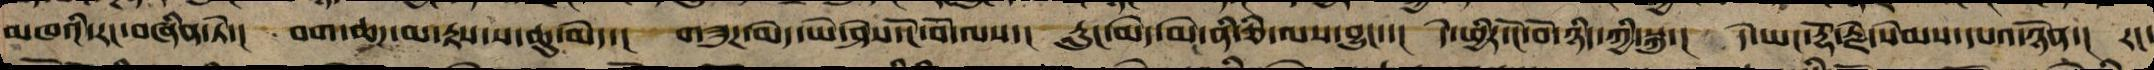མཁའི་རང་བཞིན་ཏེ་། བག་ཆཌ་མ་བརྟས་ས་ཆུ་མེད་། གཟུཌ་མེད་ཡེ་ཤེས་ངོ་བོ་ལས་། རླུང་མེད་མེ་ནི་ཅི་ལ་འབྱུང་་། དེ་ཕྱིར་ངོ་བོ་ཉིད་ཀྱི་སྐུ་། དེ་ཡང་རྡོ་རྗེ་སེམས་དཔའ་ཉོན་། རང་
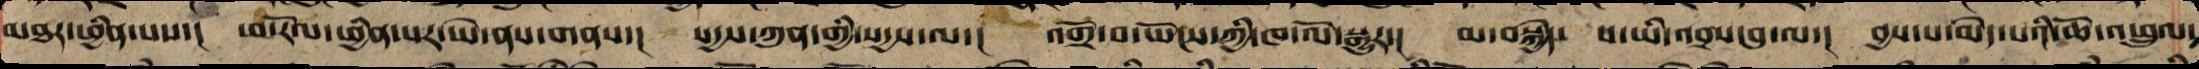མཐར་ཕྱིན་པས་། ཕ་རོལ་ཕྱིན་པར་ཡེ་ནས་གནས་། སདྱས་ཀུན་གྱི་སདྱས་ལ་། འགྲོ་བ་ཡོངས་ཀྱི་ཁ་ལོ་སྒྱུར་། མ་བསྐྱེད་པ་ཡི་འབྲས་བུ་ལ་། བྱས་པ་མེད་པའི་ཆོ་འཕྲུལ་
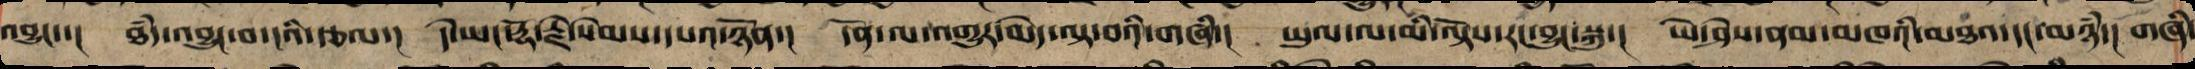བྱུང་། ཐཾད་འབྱུང་བ་ངའི་རྩལ་། དེ་ཡང་རྡོ་རྗེ་སེམས་དཔའ་ཉོན་། དོན་ལ་འགྱུར་མེད་ལྟ་བའི་གཞི་། ཡུལ་ལ་མི་ལྟོས་རང་བྱུང་སྐུ་། ཡེ་ཤེས་ནམ་མཁའི་མཐའ་དང་མཉཾ་། གཞི་
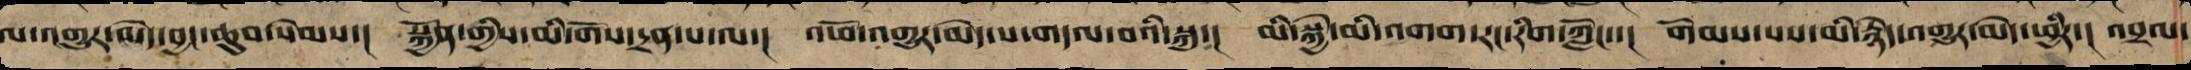ལ་འགྱུར་མེད་བྱང་ཆུབ་སེམས་། སྐྱོན་གྱིས་མི་གོས་དྲན་པ་ལ་། འཕོ་འགྱུར་མེད་པ་གདལ་བའི་སྐུ་། མི་སྐྱེ་མི་འགག་རང་རིག་ཀློང་་། གོམས་པས་མི་རྙེད་འགྱུར་མེད་ཕྱིར་། འབྲལ་
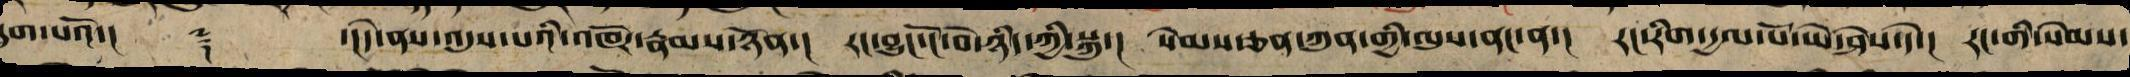དྲུག་པའོ་།། ༈ ་།།དེ་ནས་འདུས་པའི་འཁོར་རྣམས་ཉོན་། རང་བྱུང་ངོ་བོ་ཉིད་ཀྱི་སྐུ་། སེམས་ཅན་ཀུན་གྱི་ལུས་ནང་ན་། རང་རིག་རྒྱལ་པོ་ཡེ་ཤེས་དེ་། རང་གི་སེམས་
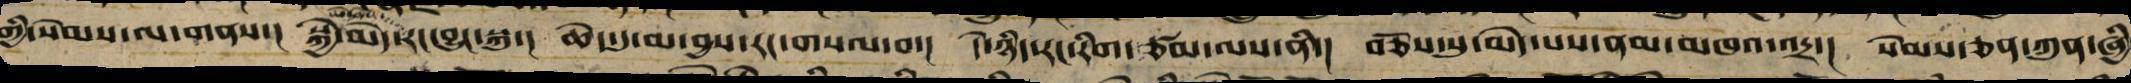གྱི་སེམས་ལ་གནས་། སྐྱེ་མེད་ཡེ་ཤེས་རང་བྱུང་སྐུ་། ཆེད་དུ་མ་བྱས་རང་གསལ་བ་། དེ་ཉིད་རང་རིག་ཙམ་ལས་ནི་། བཅོས་སུ་མེད་པས་ནམ་མཁའ་འདྲ་། སེམས་ཅན་ཀུན་ཞྱི
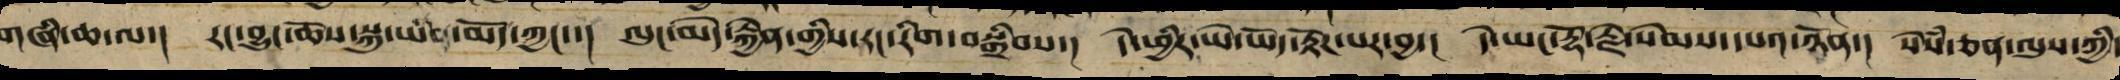གཞི་ཆ་ལ་། རང་བྱུང་ཆོས་སྐུ་ཡིན་མོད་ཀྱང་་། ལུང་མེད་རྐྱེན་གྱིས་རང་རིག་བསྒྲིབས་། དེ་ཕྱིར་ཡེ་ཡོད་རྟོཌ་པར་བྱ་། དེ་ཡང་རྡོ་རྗེ་སེམས་དཔའ་ཉོན་། སེཾས་ཅན་ལུས་ཀྱི་
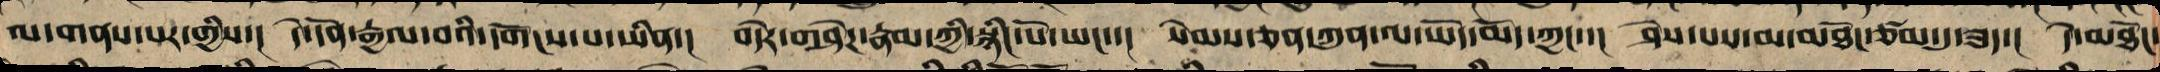ལ་གནས་པར་གྱིས་། དེ་དོན་རྒྱལ་བའི་དགོངས་པ་ཡིན་། བདེར་གཤེཌ་རྣམས་ཀྱི་སྙིང་པོ་ཡང་་། སེམས་ཅན་ཀུན་ལ་ཡོད་མོད་ཀྱང་་། ཤེས་པས་མ་མཐོང་ཙམ་དུ་ཟད་། དེ་མཐོང་
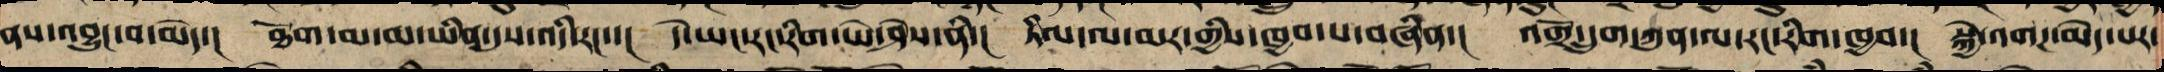ནས་འབྱུང་བ་མེད་། ཐོག་མ་མ་ཡིན་དུས་འདི་རང་་། དེ་ཡང་རང་རིག་ཡེ་ཤེས་ནི་། ཏིལ་ལ་མར་གྱིས་ཁྱབ་པ་བཞིན་། འགྲོ་དྲུག་ཀུན་ལ་རང་རིག་ཁྱབ་། སྐྱེ་འགཌ་མེད་པར་
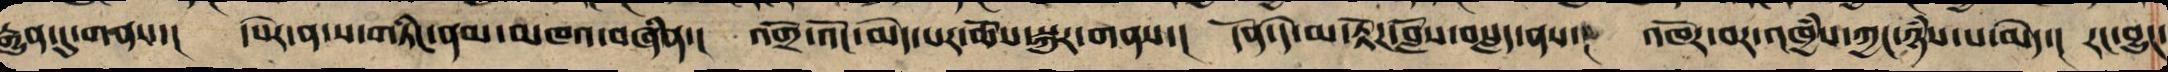རྒྱུན་དུ་གནས་། དཔེར་ན་ས་གཏིང་ནམ་མཁའ་བཞིན་། འགྲོ་འོང་མེད་པར་ཆོས་སྐུར་གནས་། དོན་དེ་མ་རྟོགས་བློས་བསླད་ནས་། འཁོར་བར་འཁྱཾས་ཀྱང་ཉམས་པ་མེད་། རང་བྱུང་
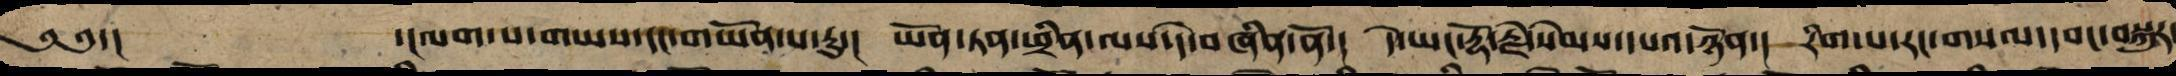༄༅་། ་།ལག་པ་གཡས་དང་གཡོན་པ་རུ་། ཡོན་ཏན་ཕྲིན་ལས་དེ་བཞིན་ནོ་། དེ་ཡང་རྡོ་རྗེ་སེམས་དཔའ་ཉོན་། རིག་པ་རང་གསལ་དབང་བསྐུར
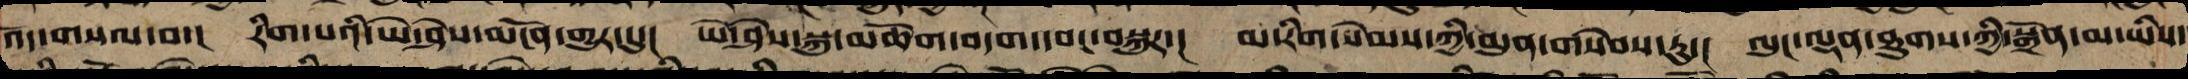འོད་གསལ་བ་། རིག་པའི་ཡེ་ཤེས་མངོན་གྱུར་དུ་། ཡེ་ཤེས་སྐུ་མཆོག་བདག་དབང་བསྐུར་། མ་རིག་སེམས་ཀྱི་མུན་གསེབས་ཏུ་། ལུང་ལྡན་ཐུགས་ཀྱི་སྒྲོན་མ་ཡིས་
